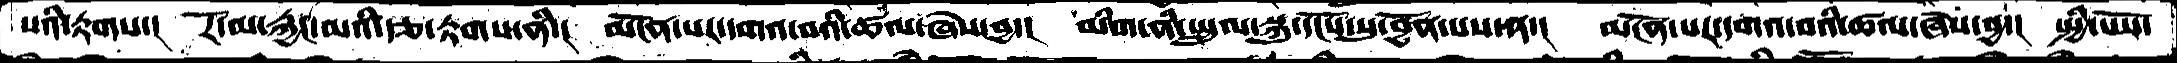པའི་རྟགས་།  རོ་མ་རྐྱང་མའི་རྩ་རྟགས་ནི་།  མངོན་པར་དགའ་བའི་ཚལ་ཞེས་བྱ་།  མིག་ནི་སྤྲུལ་སྐུ་དངོས་སུ་བྱོན་པས་ན་།  མངོན་པར་དགའ་བའི་ཚལ་ཞེས་བྱ་།  སྤྱི་པོས་
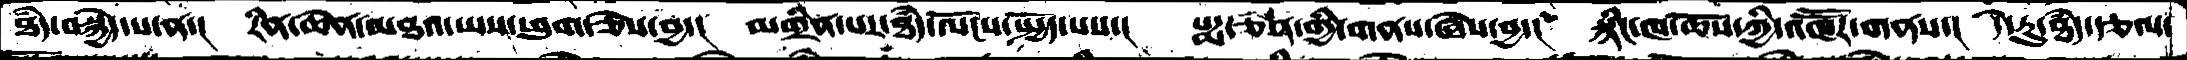ཐདཾ་བསྐྱེད་པ་ན་།  རིན་ཆེན་མཐའ་ཡས་ཕུག་ཅེས་བྱ་།  མགྲིན་པར་ཐདཾ་ལོངས་སྤྱོད་པས་།  པདྨ་ཅན་གྱི་གནས་ཞེས་བྱ་།  སྙིང་ཁ་ཆོས་ཀྱི་འཁཽར་གནས་། དེ་རུ་ཐདཾ་རྩལ་
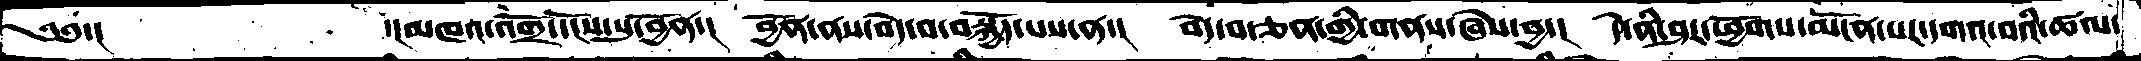༄༅་།         ་།མཁའ་འགྲོ་དངོས་སུ་བྱོན་།  བྱོན་ནས་བདེ་བ་བསྐྱོད་པས་ན་།    བདེ་བ་ཅན་གྱི་གནས་ཞེས་བྱ་།།  དེ་ནི་ཤར་ཕྱོགས་མངོན་པར་དགའ་བའི་ཚལ་
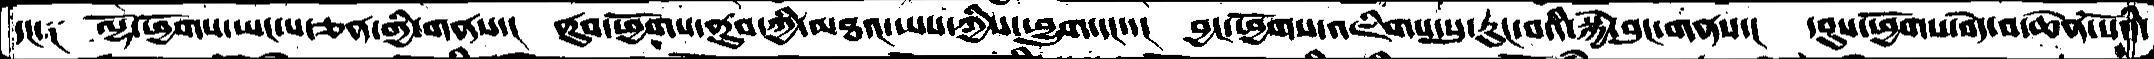དང་༑   ལྷོ་ཕྱོགས་ཡང་པ་ཅན་གྱི་གནས་།  ནུབ་ཕྱོགས་ནུབ་ཀྱི་མཐའ་ཡས་ཀྱིས་ཕྱུག་དང་་།   བྱང་ཕྱོགས་འཇིགས་སུ་་རུང་བའི་སྐྱེ་བུང་གནས་།   དབུས་ཕྱོགས་་བདེ་བ་ཆེན་པོའི་
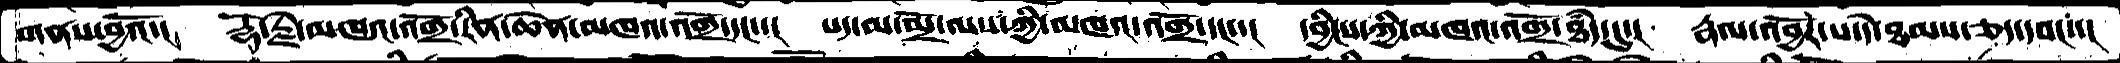གནས་བྱའོ་།  རྡོ་རྗེ་མཁའ་འགྲོ་རིན་ཆེན་མཁའ་འགྲོ་དང་་།  པད་མ་མྲོ་ལས་ཀྱི་མཁའ་འགྲོ་དང་་།  དབྱིངས་ཀྱི་མཁའ་འགྲོ་ཐཾད་དུ་།  རྣལ་འབྱོར་པ་དེ་ཐམས་ཅད་དབང་།
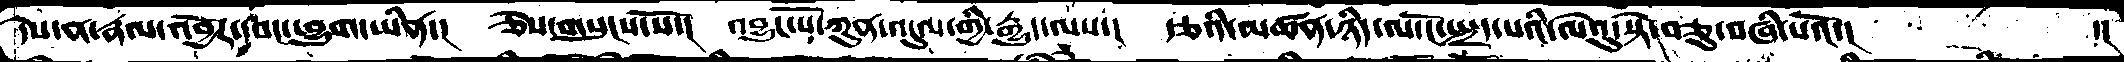དེས་ན་རྣལ་འབྱོར་དབང་ཕྱུག་ཡིན་།  ཅེས་གསུངས་སོ་།   འབྱུང་པོ་ཀུན་འདུལ་གྱི་རྒྱུད་ལས་།   རྩའི་མཚན་ཉིད་ལ་ངོ་སྤྲད་པའི་ལེའུ་སྟེ་བཅུ་བཞི་པའོ་།         ་།
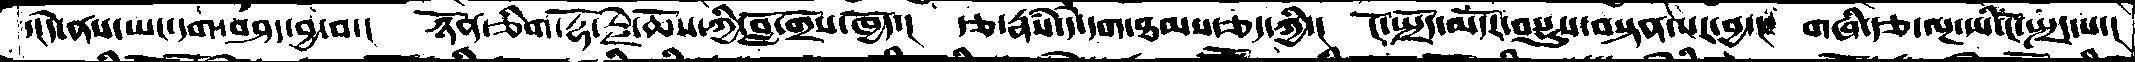་།དེ་ནས་ཡང་དག་བཤད་བྱ་བ་།  ཉོན་ཅིག་རྡོ་རྗེ་ཆོས་ཀྱི་བློ་གྲོས་ཁྱོད་།  རྩ་རྣཾས་དེ་དག་ཐམས་ཅད་ཀྱི་།  ངོ་སྤྲོད་མདོར་བསྡུས་བསྟན་པར་བྱ་།  གཞི་རྩ་ལྔ་ཡི་ངོ་སྤྲད་པ་།
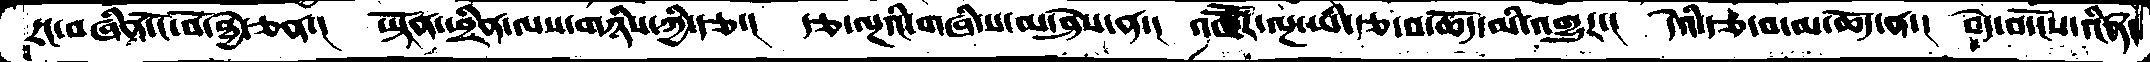རང་བཞིན་ངོ་བོ་ཐྱེ་ཅན་།  ཡྟོན་ཕྲིན་ལས་གཉིས་ཀྱི་རྩ་།  རྩ་ལྔའི་གཞི་ས་མ་ཤེས་ན་།  འཁཽར་ལྔ་ཡི་རྩ་བ་ཆོད་མི་འགྱུར་།  དེའི་རྩ་བ་མ་ཆོད་ན་།  བདེ་བ་ངོས་འཛིན་
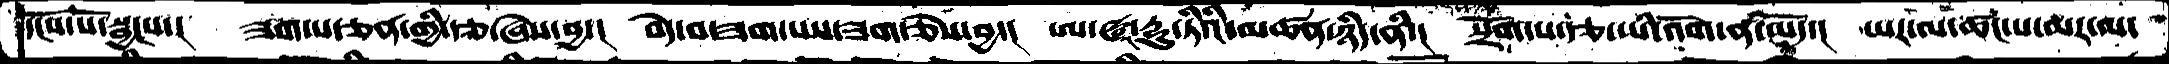དངོས་པོ་སྦྱངས་།  ཟག་པ་ཅན་གྱི་རྩ་ཞེས་བྱ་།  བདེ་བ་ཟག་པས་ཟག་ཅེས་བྱ་།  ཨ་ཝ་དྷུ་ཏིའི་མཚན་ཉིད་ནི་།  སྲོག་པ་རྩ་ཡི་འོག་ན་མོད་།  ཡར་ལ་ཚང་པ་མར་ལ
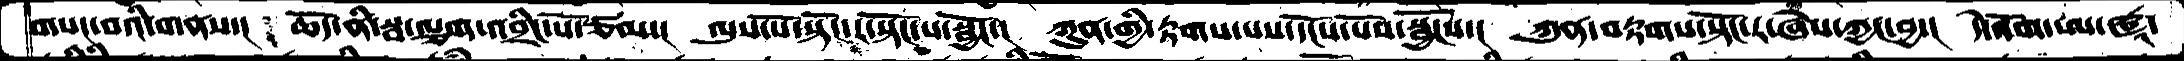གསང་བའི་གནས་།  ཆོད་ནི་སྦ་ལྕག་འབྲིང་པོ་ཙམ།  ལུས་པོ་སྟོང་ར་སྟོང་པ་སྦྱོང་།  ཀུན་གྱི་རྟགས་པས་དངོས་པོས་སྦྱོངས་།  ཀུན་བརྟགས་སྟོང་ར་ཞེས་ཀྱང་བྱ་།  དེ་འོག་ལ་ཝཱ
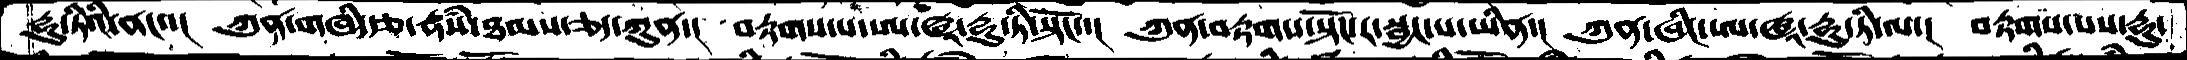དྷུ་ཏིའི་ནང་་།   ཀུན་གཞི་རྩ་རྣཾས་ཐམས་ཅད་ཀུན་།  བརྟགས་པ་ཨ་ཝཱ་དྷུ་ཏི་སྟོང་་།   ཀུན་བརྟགས་སྟོང་ར་སྦྱང་པ་ཡིན་།   ཀུན་ཞིང་ཨ་ཝཱ་དྷུ་ཏི་ལ་།   བརྟགས་པས་དྷུ་
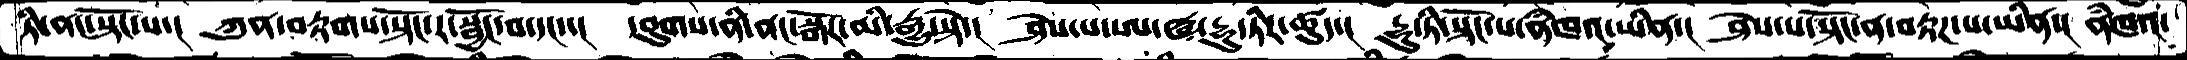ཏི་ནང་སྟོང་པ་།   ཀུན་བརྟགས་སྟོང་ར་སྦྱོང་བ་དང་་།  དབུགས་ནི་ནང་སྒོར་མི་རྒྱུ་སྟེ་།   ཤེས་པ་ཨ་ཝ་དྷུ་ཏིར་ཚུད་།   དྷུ་ཏི་སྟོང་པ་ནཾཁའ་ཡིན་།   ཤེས་པ་སྟོང་ན་བརྟཌ་པ་ཡིན་།  ནཾཁའ་
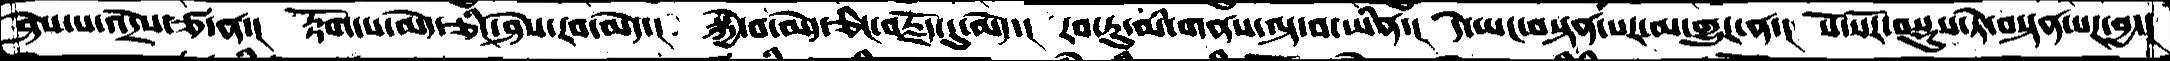ཤེས་པ་འདྲེས་ཙ་ན་།   རྟོག་པ་མེད་ཅིང་ཤེས་རབ་མེད་།  སྐྱེ་བ་མེད་ཅིང་བརྗོད་དུ་མེད་།  རབ་ཏུ་མི་གནས་ལྟ་བ་ཡིན་།  དེ་ཡང་བསྟན་པར་མ་གྱུར་ན་།   སོ་སོར་བསྡུས་ཏེ་བསྟན་པར་བྱ་།
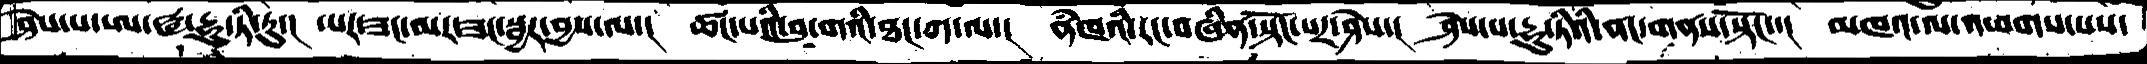ཤེས་པ་ཨ་ཝ་དྷུ་ཏི་རུ་།  ཡར་ཟང་མར་ཟང་སྦྱར་བྱས་ལ་།  ཚང་པའི་བུ་གའི་ཐང་ག་ལ་།  ནཾཁའི་རང་བཞིན་སྟོང་པར་ཤེས་།  ཤེས་པ་དྷུ་ཏིའི་ནང་གནས་སྟོང་་།  མཁའ་ལ་འཕགས་པས་
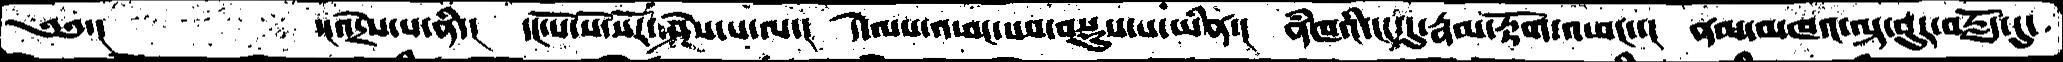༄༅་།      ་།འདྲེས་པ་ནི་།   དང་པོ་སོ་སོར་ཤེས་པ་ལ་།  དེ་ལས་འཕང་པས་བསྡུས་པ་ཡིན་།  ནཾཁའི་ངང་དུ་རྣམ་རྟོག་འཕང་་།  ནམ་མཁའ་ལྟ་བུར་བརྗོད་དུ་
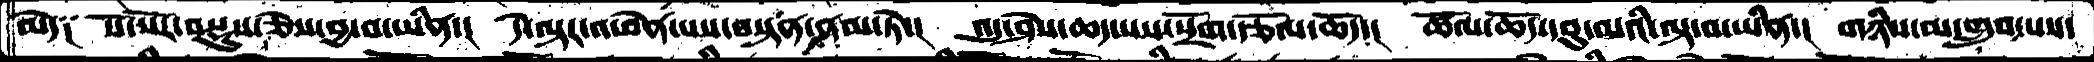མེད༑  སོ་སོར་བསྡུས་ཅེས་བྱ་བ་ཡིན་།  དེ་ལྟར་འཕེན་པས་བསྟན་ནམ་ཏེ་།  འདུ་ཤེས་ཆད་པས་སྲོག་རྩོལ་ཆོད་།  ཚོལ་ཆོད་དབུ་མའི་ལྟ་བ་ཡིན་།  གཉིས་མ་གྲུབ་པས་
